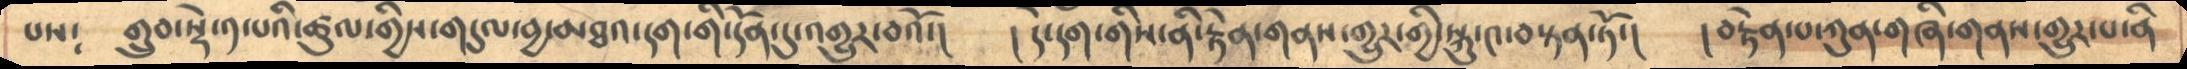པས༴   གྲུབ་སྟེ་༡་པའི་ཚུལ་གྱིས་གདུལ་བྱ་མཐའ་དག་གི་དོན་དུ་འགྱུར་བའོ་།    ། དེ་དག་གིས་ནི་རྟེན་གནས་གྱུར་གྱི་སྐུ་༤་བསྟན་ཏོ་།    ། བརྟེན་པ་ཀུན་གཞི་གནས་གྱུར་པ་ནི
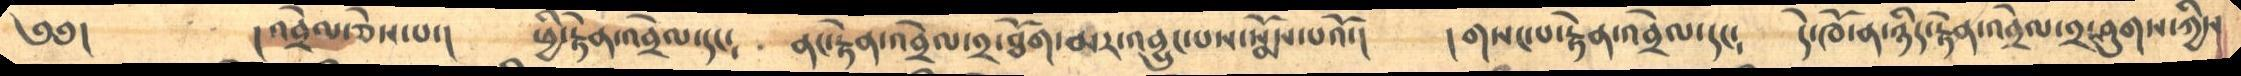༄༅།         །འབྲེལ་ཅེས་པ་།   ཕྱི་རྟེན་འབྲེལ་དང༴    ནང་རྟེན་འབྲེལ་༢་ཐོག་མར་འབྱུང་པས་སྨོས་པའོ་།    ། གསང་པ་རྟེན་འབྲེལ་དང༴   དེ་ཁོ་ན་ཉིད་རྟེན་འབྲེལ་༢་ཤུགས་ཀྱིས
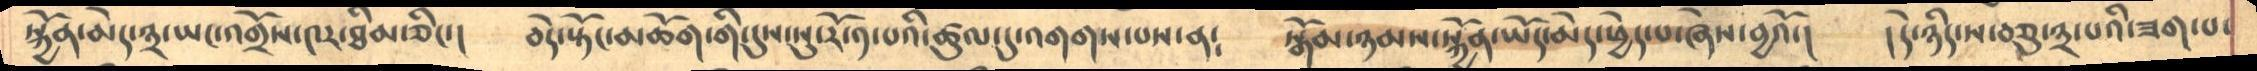སྐྱོན་མེད་༣་ཡང་འགྲོས་༤ར་ཐིམ་ཅིང་།  བདེ་སྟོང་མཆོག་གི་དུས་སུ་རོ་༡་པའི་ཚུལ་དུ་འགགས་པས་ན༴   སྒོམ་ཉམས་སྐྱོན་ཡོད་མེད་ཕྱེད་པ་ཞེས་བྱའོ་།   །དེ་ཉིད་ས་བཅུ་༣་པའི་ཟག་པ་
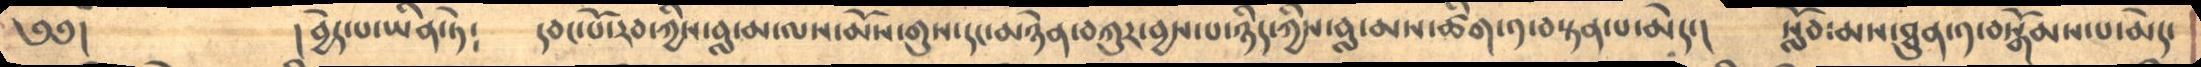༄༅།      །བྱེད་པ་ཡིན་ཏེ༴   དབང་པོ་རབ་ཀྱིས་བླ་མ་ལས་མོས་གུས་དང་མཉེན་བཀུར་བྱས་པ་ཉིད་ཀྱིས་བླ་མ་ཚིག་༡་བསྟན་པ་མེད་།   སློབ་མས་ཐུན་༡་བསྒོམས་པ་མེད་
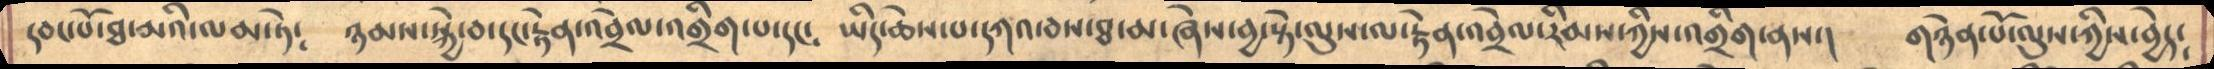དབང་པོ་ཐ་མའི་ལམ་ཏེ༴   ཉམས་སྐྱེ་བ་དང་རྟེན་འབྲེལ་འགྲིག་པ་དང༴   ཡིད་ཆེས་པ་དཀའ་བས་ཐ་མ་ཞེས་བྱ་སྟེ་ལུས་ལ་རྟེན་འབྲེལ་རིམས་ཀྱིས་འགྲིག་ནས་།   གཉེན་པོ་ལུས་ཀྱིས་བྱེད༴
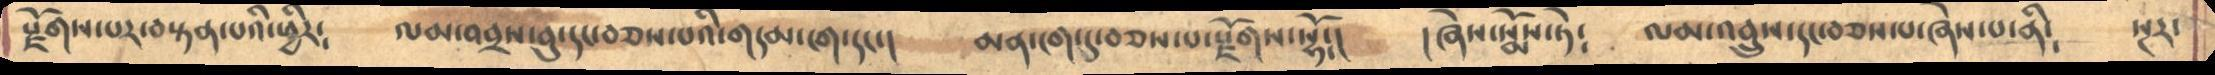རྫོགས་པར་བསྟན་པའི་ཕྱིར༴    ལམ་བབྲས་བུ་དང་བཅས་པའི་གདམ་ངག་དང་།   མན་ངག་དུ་བཅས་པ་རྫོགས་སྷོ༴།   །ཞེས་སྨོས་ཏེ༴   ལམ་འབྲུས་དང་བཅས་པ་ཞེས་པ་ནི༴   སྔར་
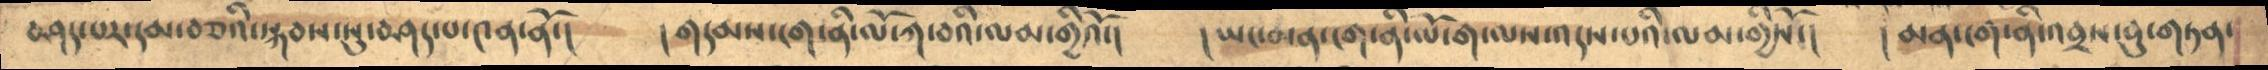བཤད་པར་དམ་བཅའི་སྐབས་སུ་བཤད་པ་༤ན་ནོ་།   ། གདམ་ངག་ནི་ལོ་ཀ་བའི་ལམ་གྱིའོ་།   །ཡང་མན་ངག་ནི་ཡོ་ག་ལས་འདས་པའི་ལམ་གྱིསོ་།   ། མན་ངག་ནི་འབྲས་བུ་གཏན་
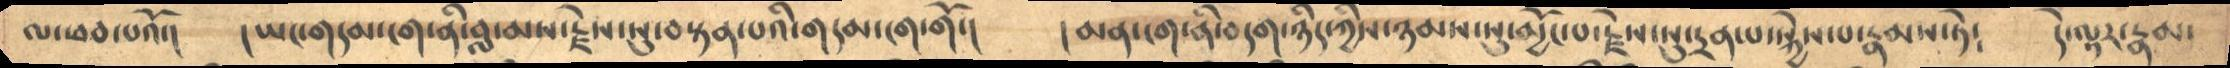ལ་ཕབ་པའོ་།  །ཡང་གདམ་ངག་ནི་བླ་མས་རྗེས་སུ་བསྟན་པའི་གདམ་ངག་གོ་།   ། མན་ངག་ནི་བདག་ཉིད་ཀྱིས་ཉམས་སུ་མྱོང་པ་རྗེས་སུ་དྲན་པ་སྐྱེས་པ་རྣམས་ཏེ༴   དེ་ལྟར་རྣམ་
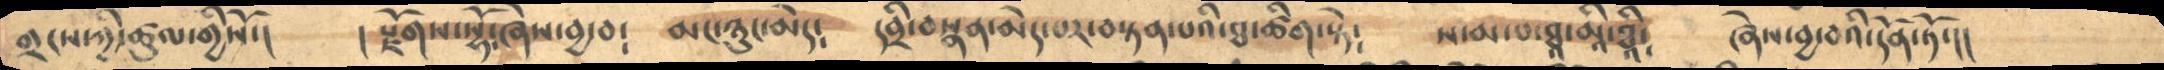གྲངས་ཀྱི་ཚུལ་གྱིསོ་།   ། རྫོགས་སྷོ་ཞེས་བྱ་བ༴   མང་ཉུང་མེད༴   དབྲི་བསྣན་མེད་པར་བསྟན་པའི་ཐ་ཚིག་སྟེ༴   ས་མ་པ་ཐྰ་མྰི་ཐྰི༴   ཞེས་བྱ་བའི་དོན་ཏོ་།།
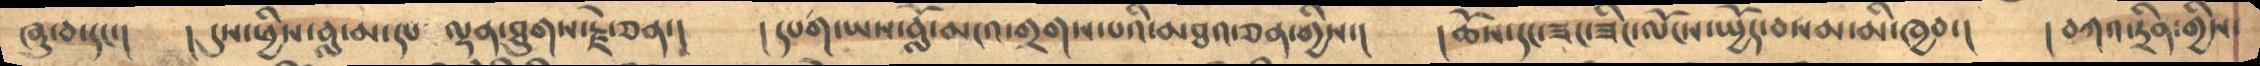ཞུ་བ་དང་།   ། དུས་ཕྱིས་བླ་མ་དང་    ལྡན་ཐུགས་རྗེ་ཅན་།   །དཔག་ཡས་བློ་མངའ་གྲགས་པའི་མཐའ་ཅན་གྱིས་།   །ཆོས་དང་ཟང་ཟིང་ལོངས་སྤྱོད་བསམ་མི་ཁྱབ་།   །བཀའ་དྲིན་གྱིས་
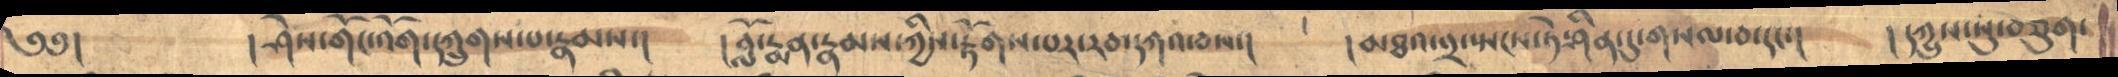༄༅།          ། ཤེས་གོང་འོག་དཀྲུགས་པ་རྣམས་།    ། བློ་རྨན་རྣམས་ཀྱིས་རྟོགས་པར་རབ་དཀའ་བས་།       །མཐའ་༢་སྤངས་ཏེ་ཤིན་དུ་གསལ་བ་དང་།      ། དཀྱུས་སུ་བཅུག་
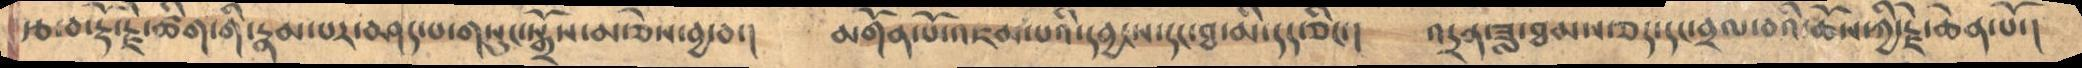རྩ་བ་རྡོ་རྗེ་ཚིག་གི་རྣམ་པར་བཤད་པ་གསུང་སྒྲོས་མ་ཅེས་བྱ་བ་།     མགོན་པོ་འཇམ་པའི་དབྱངས་དང་ཐ་མི་དད་ཅིང་།   འདྲན་ཟླ་ཐམས་ཅད་དང་བྲལ་བའི་ཆོས་ཀྱི་རྗེ་ཆེན་པོ་།
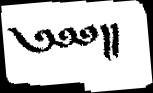༄༅༅།།
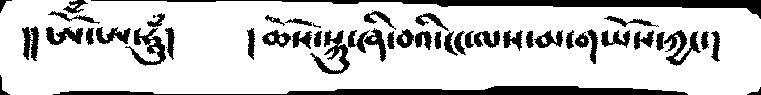།།ཨཱོྃ་ཨ་ཧཱུྃ།     །ཆོས་སྐུ་ཞི་བའི་ངང་ལས་མ་གཡོས་ཀྱང་།
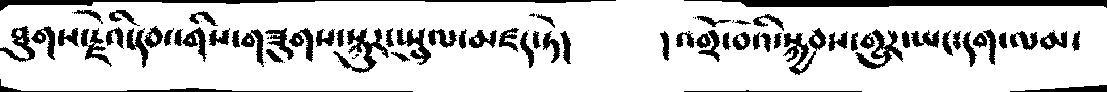ཐུགས་རྗེའི་དབང་གིས་གཟུགས་སྐུར་སྤྲུལ་མཛད་ཏེ།      །འགྲོ་བའི་སྐྱབས་གྱུར་ཡང་དག་ལམ་
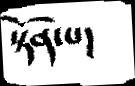སྟོན་པ།
